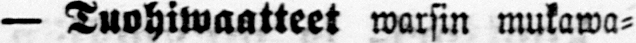— Tuohiwaatteet warsin mukawa-
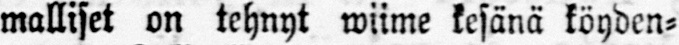malliset on tehnyt wiime kesänä köyden-
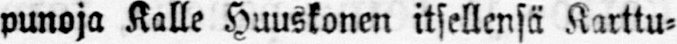punoja Kalle Huuskonen itsellensä Karttu-
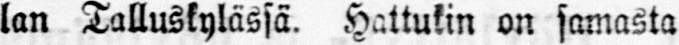lan Talluskylässä. Hattukin on samasta
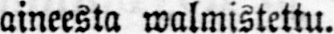aineesta walmistettu.
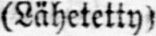(Lähetetty).
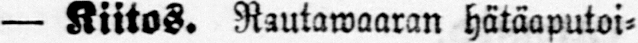— Kiitos. Rautawaaran hätäaputoi-
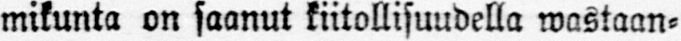mikunta on saanut kiitollisuudella wastaan-
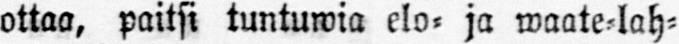ottaa, paitsi tuntuwia elo- ja waate-lah-
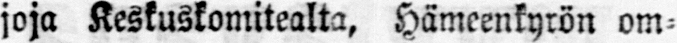joja Keskuskomitealta, Hämeenkyrön om-
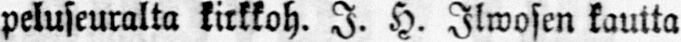peluseuralta kirkkoh. I. H. Ilwosen kautta
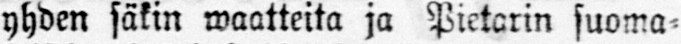yhden säkin waatteita ja Pietarin suoma-
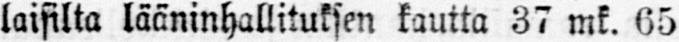laisilta lääninhallituksen kautta 37 mk. 65
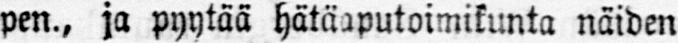pen., ja pyytää hätäaputoimikunta näiden
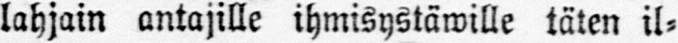lahjain antajille ihmisystäwille täten il-
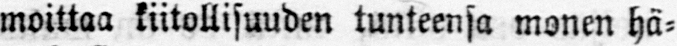moittaa kiitollisuuden tunteensa monen hä-
